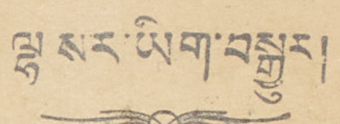ལྷ སར་ཡིག་བསྒྱུར།
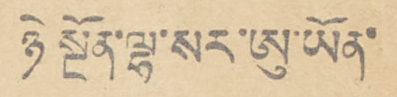ཉེ སྔོན་ལྷ་སར་ཨུ་ཡོན་
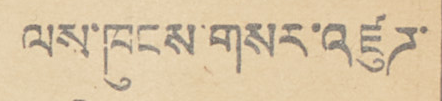ལས་ཁུངས་གསར་འཛུཌ་
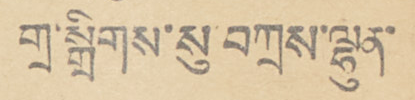གྲ་སྒྲིགས་སུ་བཀྲས་ལྷུན་
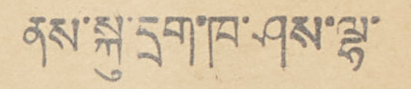ནས་སྐུ་དྲག་ཁ་ཤས་ལྷ་
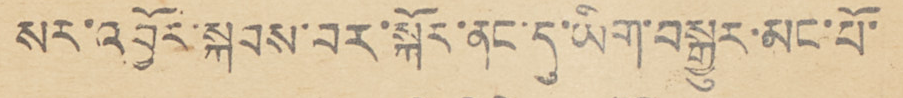སར་འབྱོར་སྐབས་བར་སྐོར་ནང་དུ་ཡིག་བསྒྱུར་མང་པོ་
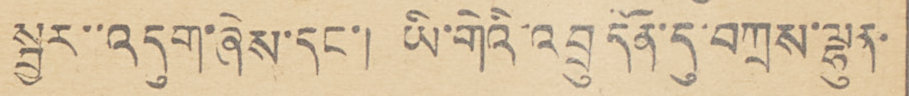སྦྱར་་འདུག་ཞེས་དང་། ཡི་གེའི་འབྲུ དོན་དུ་བཀྲས་ལྷུན་
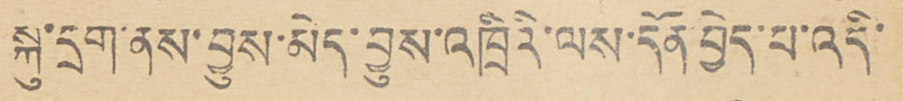སྐུ་དྲག་ནས་བྱུས་མེད་བྱུས་འཁྲིའི་ལས་དོན་བྱེད་པ་འདི་
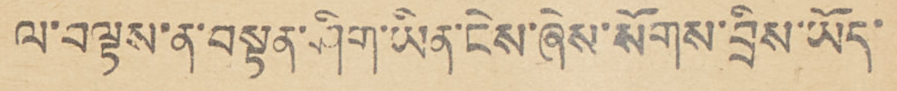ལ་བལྟས་ན་བསྟན་ཤིག་ཡིན་ངེས་ཞེས་སོགས་བྲིས་ཡོད་
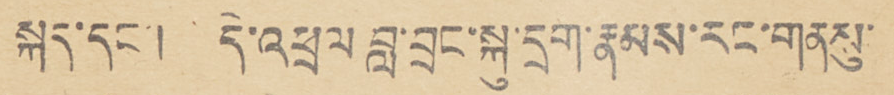སྐད་དང་། དེ་འཕྲལ བླ་བྲང་སྐུ་དྲག་རྣམས་རང་གནསུ་
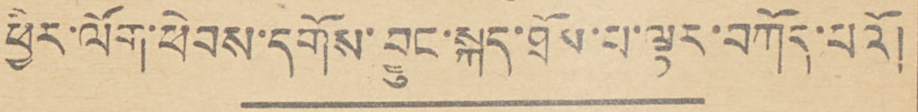ཕྱིར་ལོག་ཕེབས་དགོས་བྱུང་སྐད་ཐོས་པ་ལྟར་བཀོད་པའོ།
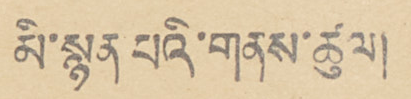མི་སྙན་པའི་གནས་ཚུལ།
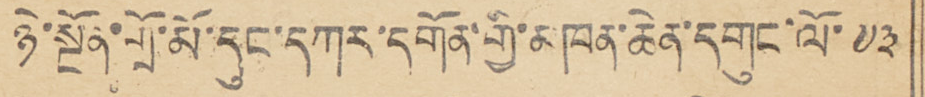ཉེ་སྔོན་གྲོ་མོ་དུང་དཀར་དགོན་གྱི་མཁན་ཆེན་དགུང་ལོ་ ༧༣
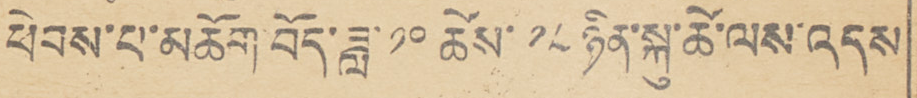ཕེབས་པ་མཆོག་བོད་ཟླ་ ༡༠ ཚེས་ ༡༨ ཉིན་སྐུ་ཚེ་ལས་འདས
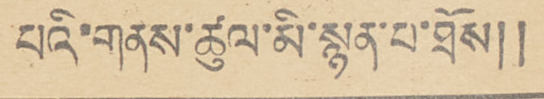པའི་གནས་ཚུལ་མི་སྙན་པ་ཐོས།།
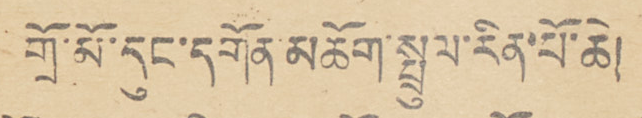གྲོ་མོ་དུང་དགོན་མཆོག་སྤྲུལ་རིན་པོ་ཆེ།
